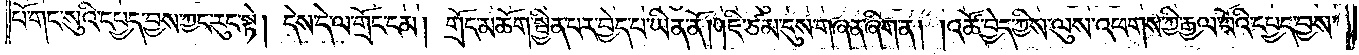པོ་གང་སུའི་དཔྱད་བྱས་ཀྱང་རུང་སྟེ། དེས་དེ་ལ་གྲོང་ངམ། གྲོང་མཆོག་སྦྱིན་པར་བྱེད་པ་ཡིན་ནོ། །ཇི་ཙམ་དུས་གཞན་ཞིག་ན། །འཚོ་བྱེད་ཀྱིས་ལུས་འཕགས་ཀྱི་རྒྱལ་པོའི་དཔྱད་བྱས་
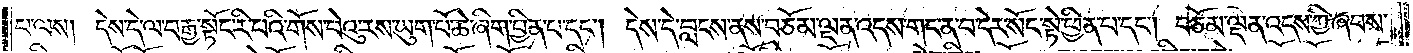པ་ལས། དེས་དེ་ལ་བརྒྱ་སྟོང་རི་པའི་གོས་བེའུ་རས་ཡུག་པོ་ཆེ་ཞིག་བྱིན་པ་དང༌། དེས་དེ་བླངས་ནས་བཅོམ་ལྡན་འདས་གང་ན་བ་དེར་སོང་སྟེ་ཕྱིན་པ་དང༌། བཅོམ་ལྡན་འདས་ཀྱི་ཞབས་
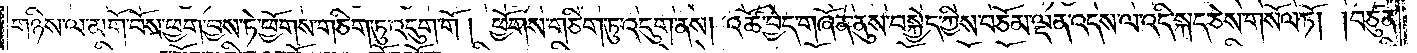གཉིས་ལ་མགོ་བོས་ཕྱག་བྱས་ཏེ་ཕྱོགས་གཅིག་ཏུ་འདུག་གོ། ཕྱོགས་གཅིག་ཏུ་འདུག་ནས། འཚོ་བྱེད་གཞོན་ནུས་བསྐྱེད་ཀྱིས་བཅོམ་ལྡན་འདས་ལ་འདི་སྐད་ཅེས་གསོལ་ཏོ། །བཙུན་
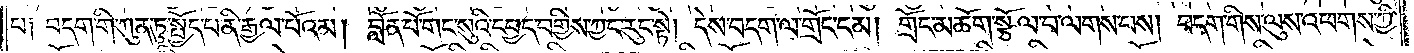པ། བདག་གི་ཀུན་ཏུ་སྤྱོད་པ་ནི་རྒྱལ་པོའམ། བློན་པོ་གང་སུའི་དཔྱད་བགྱིས་ཀྱང་རུང་སྟེ། དེས་བདག་ལ་གྲོང་ངམ། གྲོང་མཆོག་སྩོལ་བ་ལགས་པས། བདག་གིས་ལུས་འཕགས་ཀྱི་
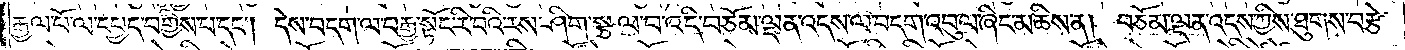རྒྱལ་པོ་ལ་དཔྱད་བགྱིས་པ་དང༌། དེས་བདག་ལ་བརྒྱ་སྟོང་རི་བའི་རས་ཤིག་སྩལ་བ་འདི་བཅོམ་ལྡན་འདས་ལ་བདག་འབུལ་ཞིང་མཆིས་ན། བཅོམ་ལྡན་འདས་ཀྱིས་ཐུགས་བརྩེ་
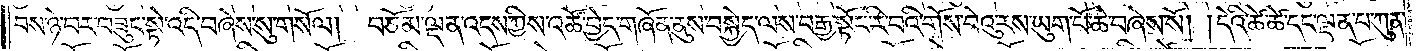བས་ཉེ་བར་བཟུང་སྟེ་འདི་བཞེས་སུ་གསོལ། བཅོམ་ལྡན་འདས་ཀྱིས་འཚོ་བྱེད་གཞོན་ནུས་བསྐྱེད་ལས་བརྒྱ་སྟོང་རི་བའི་གོས་བེའུ་རས་ཡུག་པོ་ཆེ་བཞེས་སོ། །དེའི་ཚེ་ཚེ་དང་ལྡན་པ་ཀུན་
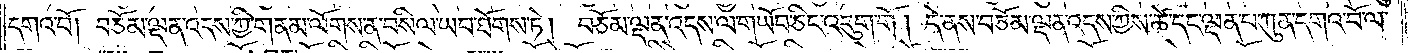དགའ་བོ། བཅོམ་ལྡན་འདས་ཀྱི་གནམ་ལོགས་ན་བསིལ་ཡབ་ཐོགས་ཏེ། བཅོམ་ལྡན་འདས་ལ་གཡོབ་ཅིང་འདུག་གོ། དེ་ནས་བཅོམ་ལྡན་འདས་ཀྱིས་ཚེ་དང་ལྡན་པ་ཀུན་དགའ་བོ་ལ་
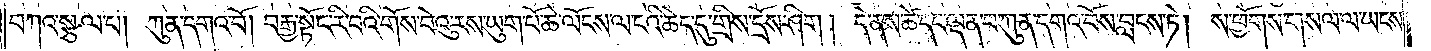བཀའ་སྩལ་པ། ཀུན་དགའ་བོ། བརྒྱ་སྟོང་རི་བའི་གོས་བེའུ་རས་ཡུག་པོ་ཆེ་ལོངས་ལ་པའི་ཆེད་དུ་གྲིས་དྲོས་ཤིག། དེ་ནས་ཚེ་དང་ལྡན་པ་ཀུན་དགའ་བོས་བླངས་ཏེ། ས་ཕྱོགས་གསལ་ལ་ཡངས་
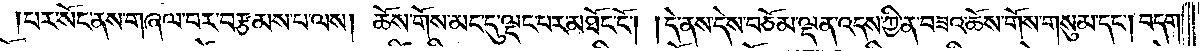པར་སོང་ནས་གཞལ་བར་བརྩམས་པ་ལས། ཆོས་གོས་མང་དུ་ལྡང་པར་མཐོང་ངོ༌། །དེ་ནས་དེས་བཅོམ་ལྡན་འདས་ཀྱི་ན་བཟའ་ཆོས་གོས་གསུམ་དང༌། བདག་
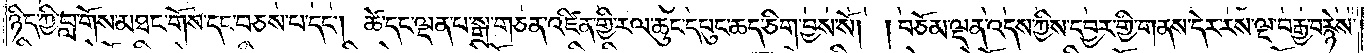ཉིད་ཀྱི་བླ་གོས་མཐང་གོས་དང་བཅས་པ་དང༌། ཚེ་དང་ལྡན་པ་སྒྲ་གཅན་འཛིན་གྱི་རས་ཆུང་དཔུང་ཆད་ཅིག་བྱས་སོ། །བཅོམ་ལྡན་འདས་ཀྱིས་དབྱར་གྱི་གནས་དེར་རས་ལྔ་བརྒྱ་བརྙེས་
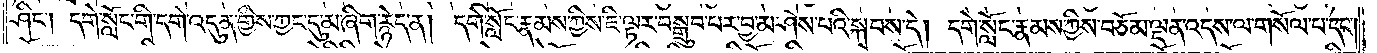ཤིང༌། དགེ་སློང་གི་དགེ་འདུན་གྱིས་ཀྱང་དུ་མ་ཞིག་རྙེད་ན། དགེ་སློང་རྣམས་ཀྱིས་ཇི་ལྟར་བསྒྲུབ་པར་བྱ་བ་ཤེས་པའི་སྐབས་དེ། དགེ་སློང་རྣམས་ཀྱིས་བཅོམ་ལྡན་འདས་ལ་གསོལ་པ་དང༌།
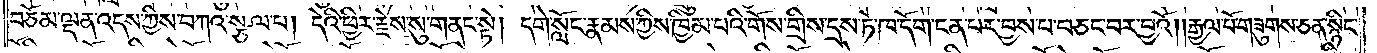བཅོམ་ལྡན་འདས་ཀྱིས་བཀའ་སྩལ་པ། དེའི་ཕྱིར་རྗེས་སུ་གནང་སྟེ། དགེ་སློང་རྣམས་ཀྱིས་ཁྱིམ་པའི་གོས་གྲིས་དྲས་ཏེ་ཁ་དོག་ངན་པར་བྱས་པ་བཅང་བར་བྱའོ། །རྒྱལ་པོ་གཟུགས་ཅན་སྙིང་
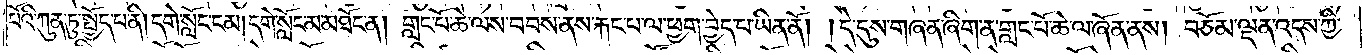པོའི་ཀུན་ཏུ་སྤྱོད་པ་ནི། དགེ་སློང་ངམ། དགེ་སློང་མ་མཐོང་ན། གླང་པོ་ཆེ་ལས་བབས་ནས་རྐང་པ་ལ་ཕྱག་བྱེད་པ་ཡིན་ནོ། །དེ་དུས་གཞན་ཞིག་ན་གླང་པོ་ཆེ་ལ་ཞོན་ནས། བཅོམ་ལྡན་འདས་ཀྱི་
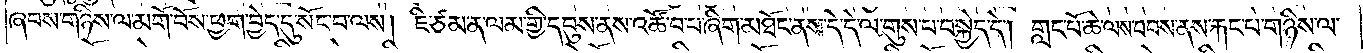ཞབས་གཉིས་ལ་མགོ་བོས་ཕྱག་བྱེད་དུ་སོང་བ་ལས། ཇི་ཙམ་ན་ལམ་གྱི་དབུས་ནས་འཚོ་བ་པ་ཞིག་མཐོང་ནས་དེ་དེ་ལ་གུས་པ་བསྐྱེད་དེ། གླང་པོ་ཆེ་ལས་བབས་ནས་རྐང་པ་གཉིས་ལ་
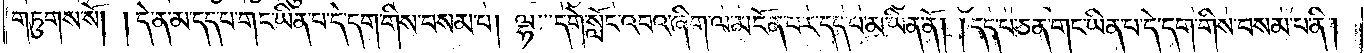གཏུགས་སོ། །དེ་ན་མ་དད་པ་གང་ཡིན་པ་དེ་དག་གིས་བསམ་པ། ལྷ་དགེ་སློང་འབའ་ཞིག་ལ་མངོན་པར་དད་པ་མ་ཡིན་ནོ། །དད་པ་ཅན་གང་ཡིན་པ་དེ་དག་གིས་བསམ་པ་ནི།
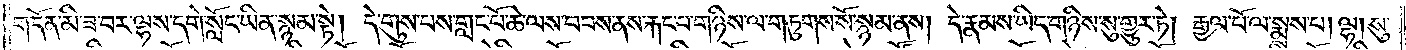གདོན་མི་ཟ་བར་ལྷས་དགེ་སློང་ཡིན་སྙམ་སྟེ། དེ་གུས་པས་གླང་པོ་ཆེ་ལས་བབས་ནས་རྐང་པ་གཉིས་ལ་གཏུགས་སོ་སྙམ་ནས། དེ་རྣམས་ཡིད་གཉིས་སུ་གྱུར་ཏེ། རྒྱལ་པོ་ལ་སྨྲས་པ། ལྷ། སུ་
